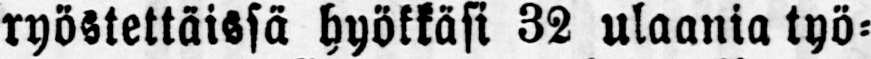ryöstettäissä hyökkäsi 32 ulaania työ-
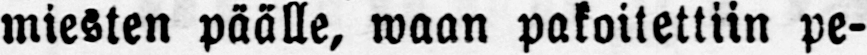miesten päälle, waan pakoitettiin pe-
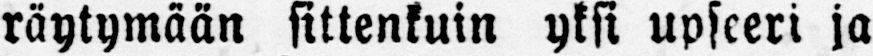räytymään sittenkuin yksi upseeri ja
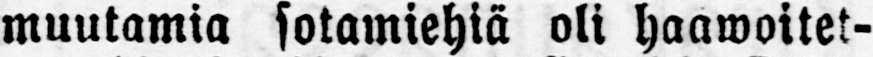muutamia sotamiehiä oli haawoitet-
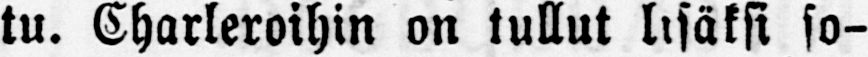tu. Charleroihin on tullut lisäksi so-
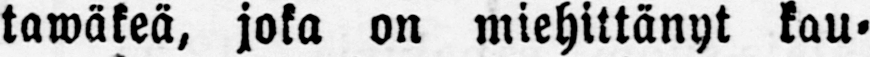tawäkeä, joka on miehittänyt kau-
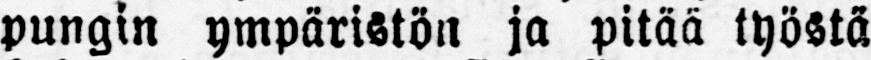pungin ympäristön ja pitää työstä
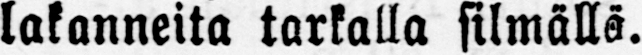lakanneita tarkalla silmällä.
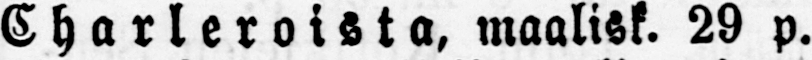Charleroista, maalisk. 29 p.
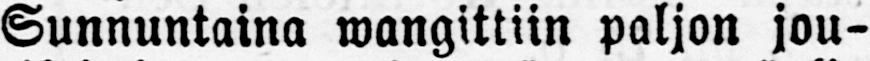Sunnuntaina wangittiin paljon jou-
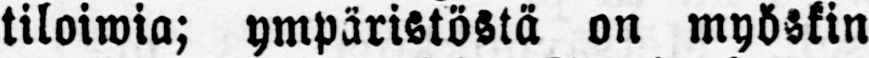tiloiwia; ympäristöstä on myöskin
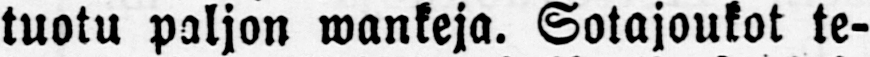tuotu paljon wankeja. Sotajoukot te-
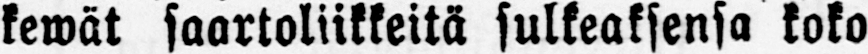kewät saartoliikkeitä sulkeaksensa koko
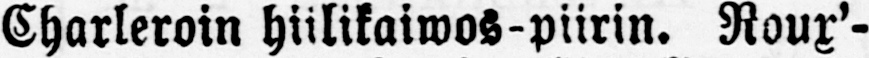Charleroin hiilikaiwos-piirin. Roux'-
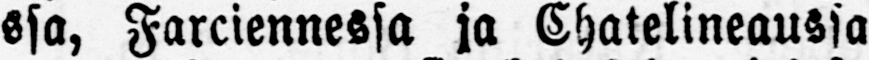ssa, Farciennessa ja Chatelineaussa
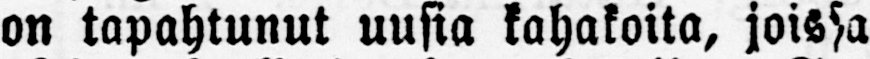on tapahtunut uusia kahakoita, joissa
